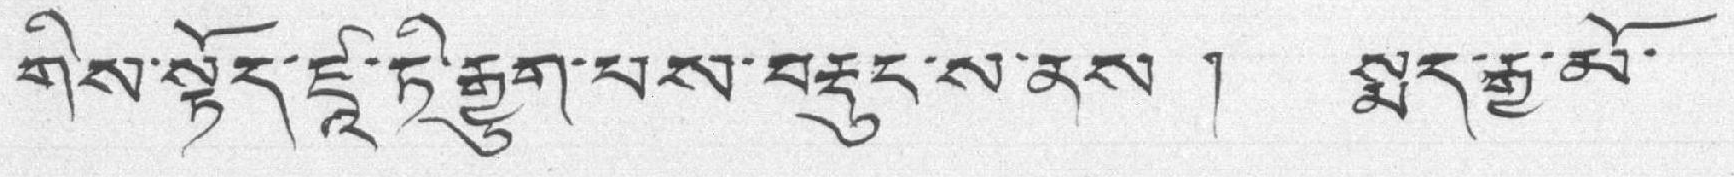གིས་སྟོད་ཛཱ་ཏི་རྒྱུག་པས་བརྡུང་ས་ནས ། སྨད་རྒྱ་མོ་
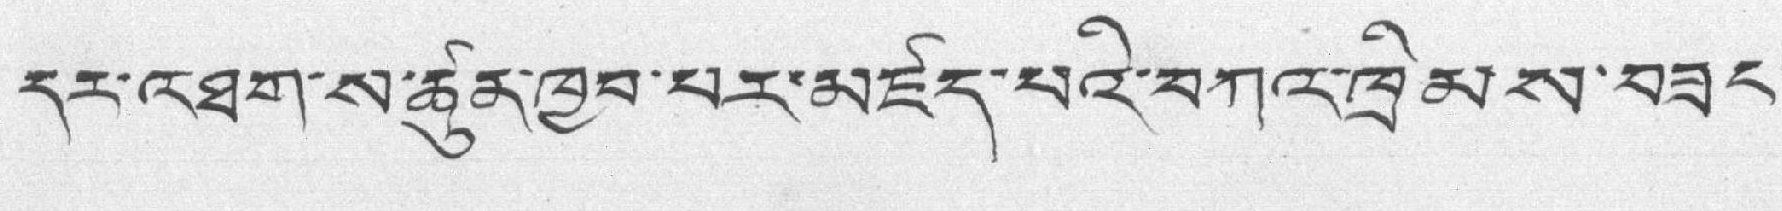དར་འཐག་ས་ཚུན་ཁྱབ་པར་མཛད་པའི་བཀའ་ཁྲིམས་བཟང་
